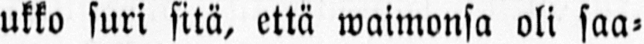ukko suri sitä, että waimonsa oli saa-
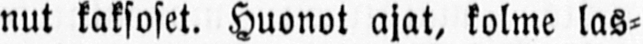nut kaksoset. Huonot ajat, kosine las-
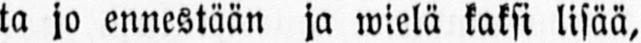ta jo ennestään ja wielä kaksi lisää,
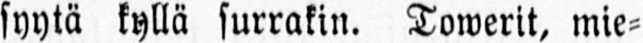syytä kyllä surrakin. Towerit, mie-
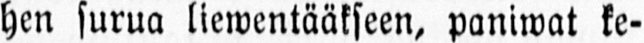hen surua liewentääkseen, paniwat ke-
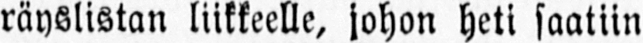räyslistan liikkeelle, johon heti saatiin
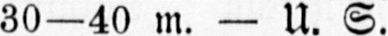30—40 m. — U. S.
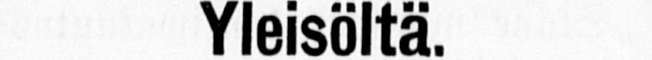Yleisöltä.
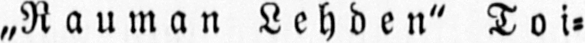„Rauman Lehden" Toi-
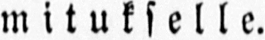mitukselle.
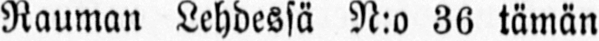Rauman Lehdessä N:o 36 tämän
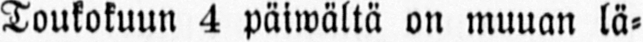Toukokuun 4 päiwältä on muuan lä-
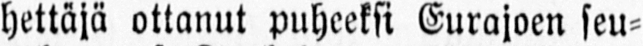hettäjä ottanut puheeksi Eurajoen seu-
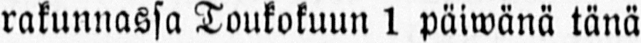rakunnassa Toukokuun 1 päiwänä tänä
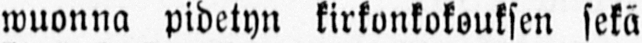wuonna pidetyn kirkonkokouksen sekä
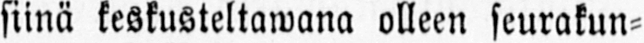siinä keskusteltawana olleen seurakun-
